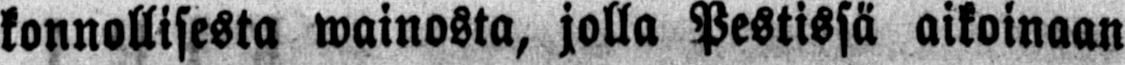konnollisesta wainosta, jolla Pestissä aikoinaan
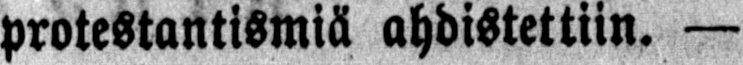protestantismiä ahdistettiin. —
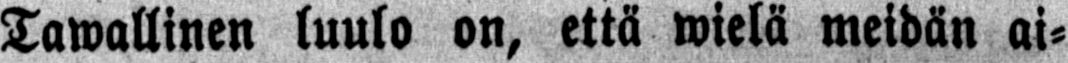Tawallinen luulo on, että wielä meidän ai-
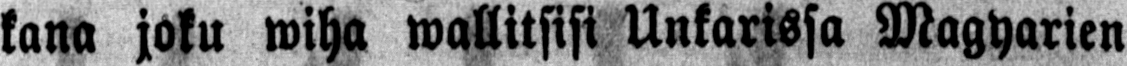kana joku wiha wallitsisi Unkarissa Magyarien
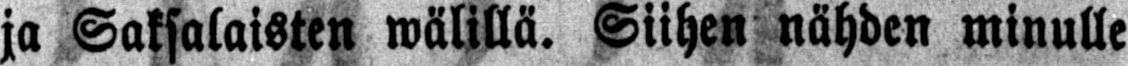ja Saksalaisten wälillä. Siihen nähden minulle
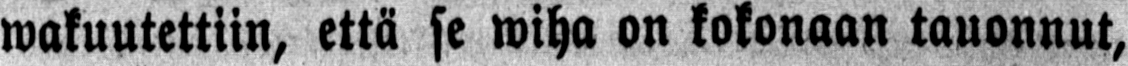wakuutettiin, että se wiha on kokonaan tauonnut,
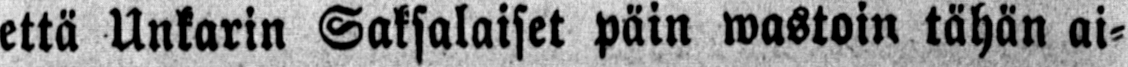että Unkarin Saksalaiset päin wastoin tähän ai-
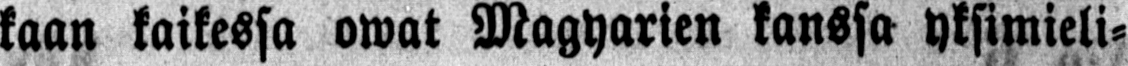kaan kaikessa owat Magyarien kanssa yksimieli-
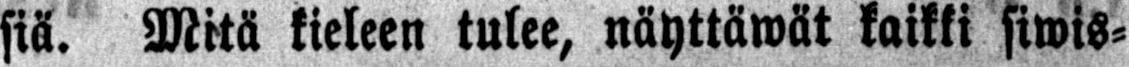siä. Mitä kieleen tulee, näyttäwät kaikki siwis-
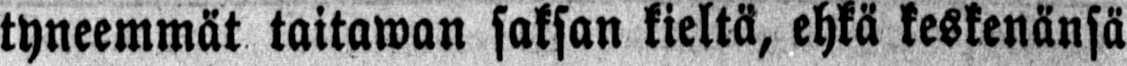tyneemmät taitawan saksan kieltä, ehkä keskenänsä
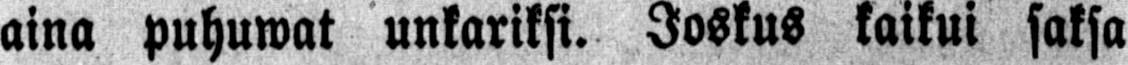aina puhuwat unkariksi. Joskus kaikui saksa
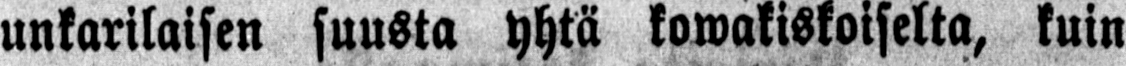unkarilaisen suusta yhtä kowakiskoiselta, kuin
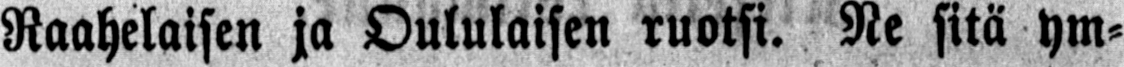Raahelaisen ja Oululaisen ruotsi. Ne sitä ym-
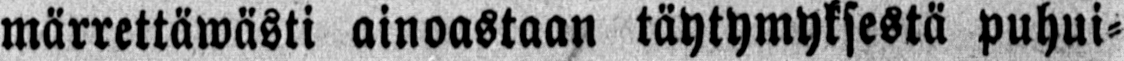märrettäwästi ainoastaan täytymyksestä puhui-
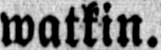watkin.
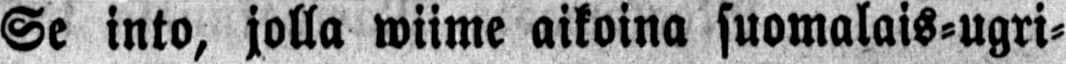Se into, jolla wiime aikoina suomalais-ugri-
